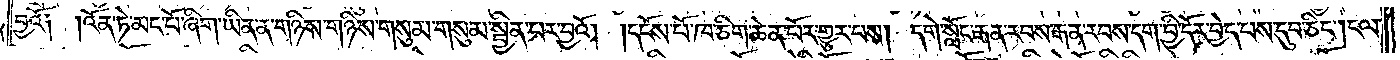བྱའོ༑ ༑འོན་ཏེ་མང་པོ་ཞིག་ཡིན་ན་གཉིས་གཉིས་གསུམ་གསུམ་སྦྱིན་པར་བྱའོ། །དངོས་པོ་ཁ་ཅིག་ཆེན་པོར་གྱུར་པས། དགེ་སློང་རྒན་རབས་རྒན་རབས་དག་བྱི་དོར་བྱེད་པས་དུབ་ཅིང༌། ངལ་
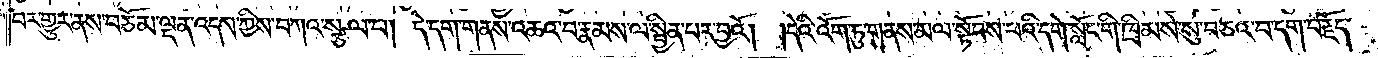བར་གྱུར་ནས་བཅོམ་ལྡན་འདས་ཀྱིས་བཀའ་སྩལ་པ། དེ་དག་གནས་འཆའ་བ་རྣམས་ལ་སྦྱིན་པར་བྱའོ། །དེའི་འོག་ཏུ་གནས་མལ་སྟོབས་པའི་དགེ་སློང་གི་ཁྲིམས་སུ་བཅའ་བ་དག་བརྗོད་
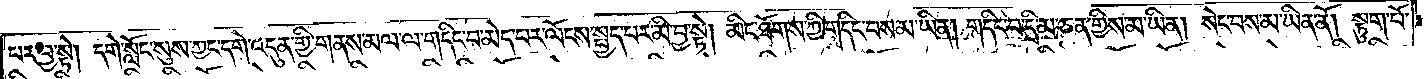པར་བྱ་སྟེ། དགེ་སློང་སུས་ཀྱང་དགེ་འདུན་གྱི་གནས་མལ་ལ་གདིང་བ་མེད་པར་ལོངས་སྤྱད་པར་མི་བྱ་སྟེ། མིང་ཐོགས་ཀྱི་གདིང་བས་མ་ཡིན། གདིང་བ་དྲི་མ་ཅན་གྱིས་མ་ཡིན། སེང་བས་མ་ཡིན་ནོ། །སྟུག་པོ་
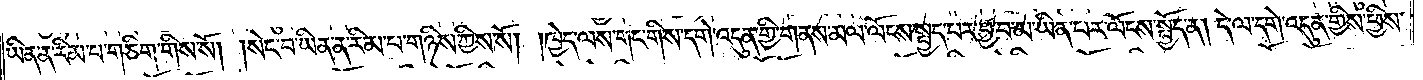ཡིན་ན་རིམ་པ་གཅིག་གིས་སོ། །སེང་བ་ཡིན་ན་རིམ་པ་གཉིས་ཀྱིས་སོ། །ཁྱེད་ལས་གང་གིས་དགེ་འདུན་གྱི་གནས་མལ་ལོངས་སྤྱད་པར་བྱ་བ་མ་ཡིན་པར་ལོངས་སྤྱོད་ན། དེ་ལ་དགེ་འདུན་གྱིས་ཕྱིས་
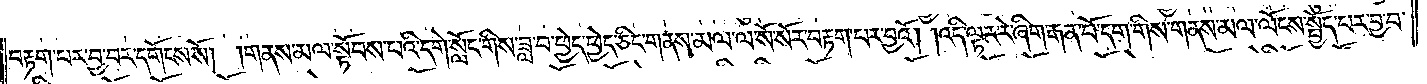བརྟག་པར་བྱ་བར་དགོངས་སོ། །གནས་མལ་སྟོབས་པའི་དགེ་སློང་གིས་ཟླ་བ་ཕྱེད་ཕྱེད་ཅིང་གནས་མལ་ལ་སོ་སོར་བརྟག་པར་བྱའོ། །འདི་ལྟར་རེ་ཞིག་རྒན་པོ་དག་གིས་གནས་མལ་ལོངས་སྤྱོད་པར་བྱ་བ་
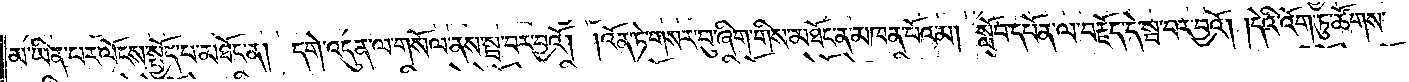མ་ཡིན་པར་ལོངས་སྤྱོད་པ་མཐོང་ན། དགེ་འདུན་ལ་གསོལ་ནས་སྦ་བར་བྱའོ། །འོན་ཏེ་གསར་བུ་ཞིག་གིས་མཐོང་ན་མཁན་པོའམ། སློབ་དཔོན་ལ་བརྗོད་དེ་སྦ་བར་བྱའོ། །དེའི་འོག་ཏུ་ཚོགས་
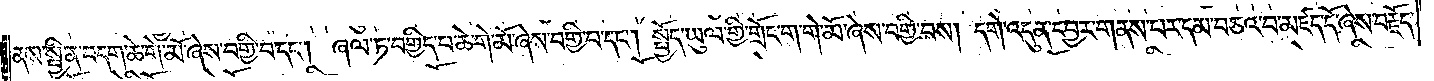ནས་སྦྱིན་བདག་ཆེ་གེ་མོ་ཞེས་བགྱི་བ་དང༌། ཞལ་ཏ་བགྱིད་པ་ཆེ་གེ་མོ་ཞེས་བགྱི་བ་དང༌། སྤྱོད་ཡུལ་གྱི་གྲོང་ག་གེ་མོ་ཞེས་བགྱི་བས། དགེ་འདུན་དབྱར་གནས་པར་དམ་བཅའ་བ་མཛད་དོ་ཞེས་བརྗོད་
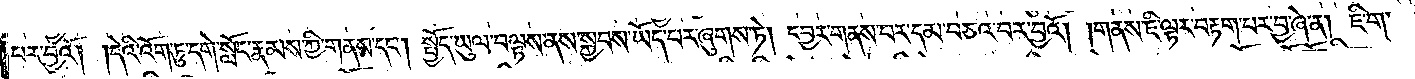པར་བྱའོ། །དེའི་འོག་ཏུ་དགེ་སློང་རྣམས་ཀྱི་གནས་དང༌། སྤྱོད་ཡུལ་བལྟས་ནས་སྐྱབས་ཡོད་པར་ཞུགས་ཏེ། དབྱར་གནས་པར་དམ་བཅའ་བར་བྱའོ། །གནས་ཇི་ལྟར་བརྟག་པར་བྱ་ཞེ་ན། ཇི་ག་
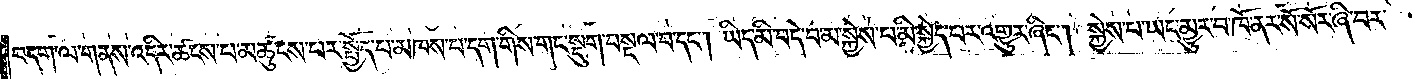བདག་ལ་གནས་འདིར་ཚངས་པ་མཚུངས་པར་སྤྱོད་པ་མཁས་པ་དག་གིས་གང་སྡུག་བསྔལ་བ་དང༌། ཡིད་མི་བདེ་བ་མ་སྐྱེས་པ་མི་སྐྱེད་པར་འགྱུར་ཞིང༌། སྐྱེས་པ་ཡང་མྱུར་བ་ཁོ་ནར་སོ་སོར་ཞི་བར་
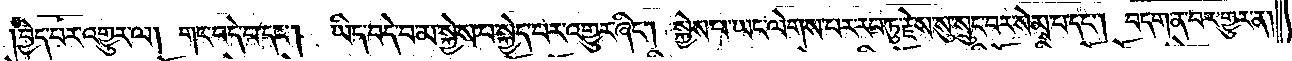བྱེད་པར་འགྱུར་ལ། གང་བདེ་བ་དང༌། ཡིད་བདེ་བ་མ་སྐྱེས་པ་སྐྱེད་པར་འགྱུར་ཞིང༌། སྐྱེས་པ་ཡང་ལེགས་པར་རབ་ཏུ་རྗེས་སུ་སྲུང་བར་སེམས་པ་དང༌། བདག་ན་བར་གྱུར་ན།
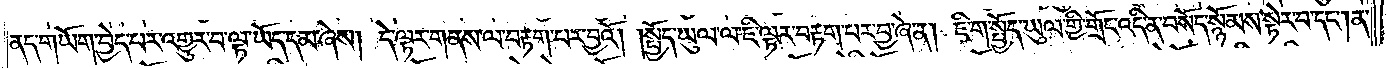ནད་གཡོག་བྱེད་པར་འགྱུར་བ་ལྟ་ཡོད་དམ་ཞེས། དེ་ལྟར་གནས་ལ་བརྟག་པར་བྱའོ། །སྤྱོད་ཡུལ་ལ་ཇི་ལྟར་བརྟག་པར་བྱ་ཞེ་ན། ཇི་ག་སྤྱོད་ཡུལ་གྱི་གྲོང་འདི་ན་བསོད་སྙོམས་སྟེར་བ་དང༌། ན་
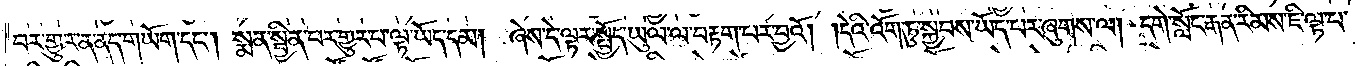བར་གྱུར་ན་ནད་གཡོག་དང༌། སྨན་སྦྱིན་པར་གྱུར་པ་ལྟ་ཡོད་དམ། ཞེས་དེ་ལྟར་སྤྱོད་ཡུལ་ལ་བརྟག་པར་བྱའོ། །དེའི་འོག་ཏུ་སྐྱབས་ཡོད་པར་ཞུགས་ལ། དགེ་སློང་རྒན་རིམས་ཇི་ལྟ་པ་
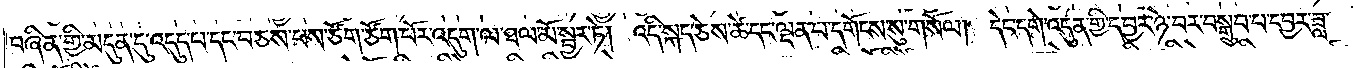བཞིན་གྱི་མདུན་དུ་འདུད་པ་དང་བཅས་པས་ཙོག་ཙོག་པོར་འདུག་ལ་ཐལ་མོ་སྦྱར་ཏེ། འདི་སྐད་ཅེས་ཚེ་དང་ལྡན་པ་དགོངས་སུ་གསོལ། དེང་དགེ་འདུན་གྱི་དབྱར་ཉེ་བར་བསྒྲུབ་པ་དབྱར་ཟླ་
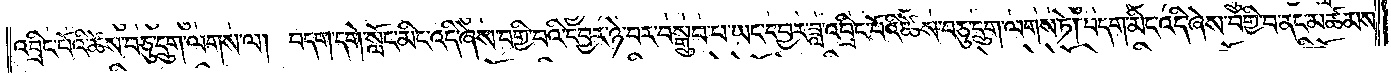འབྲིང་པོའི་ཚེས་བཅུ་དྲུག་ལགས་ལ། བདག་དགེ་སློང་མིང་འདི་ཞེས་བགྱི་བའི་དབྱར་ཉེ་བར་བསྒྲུབ་པ་ཡང་དབྱར་ཟླ་འབྲིང་པོའི་ཚེས་བཅུ་དྲུག་ལགས་ཏེ། བདག་མིང་འདི་ཞེས་བགྱི་བ་ནང་མཚམས་
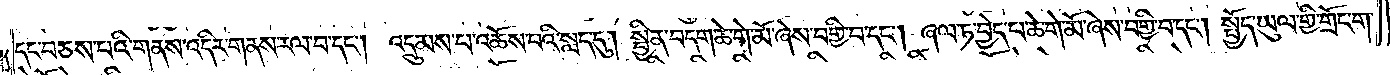དང་བཅས་པའི་གནས་འདིར་གནས་རལ་བ་དང༌། འདྲུམས་པ་འཆོས་པའི་སླད་དུ། སྦྱིན་བདག་ཆེ་གེ་མོ་ཞེས་བགྱི་བ་དང༌། ཞལ་ཏ་བྱེད་པ་ཆེ་གེ་མོ་ཞེས་བགྱི་བ་དང༌། སྤྱོད་ཡུལ་གྱི་གྲོང་ག་
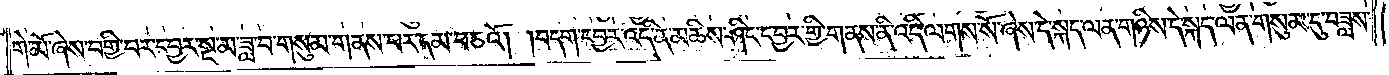གེ་མོ་ཞེས་བགྱི་བར་དབྱར་སྔ་མ་ཟླ་བ་གསུམ་གནས་པར་དམ་བཅའོ། །བདག་དབྱར་འདི་ན་མཆིས་ཤིང་དབྱར་གྱི་གནས་ནི་འདི་ལགས་སོ་ཞེས་དེ་སྐད་ལན་གཉིས་དེ་སྐད་ལན་གསུམ་དུ་བཟླས་
